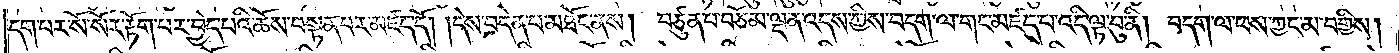དག་པར་སོ་སོར་རྟོག་པར་བྱེད་པའི་ཆོས་བསྟན་པར་མཛད་དོ། །དེས་བདེན་པ་མཐོང་ནས། བཙུན་པ་བཅོམ་ལྡན་འདས་ཀྱིས་བདག་ལ་གང་མཛད་པ་འདི་ལྟ་བུ་ནི། བདག་ལ་ལས་ཀྱང་མ་བགྱིས།
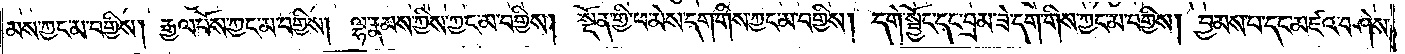མས་ཀྱང་མ་བགྱིས། རྒྱལ་པོས་ཀྱང་མ་བགྱིས། ལྷ་རྣམས་ཀྱིས་ཀྱང་མ་བགྱིས། སྔོན་གྱི་ཕ་མེས་དག་གིས་ཀྱང་མ་བགྱིས། དགེ་སྦྱོང་དང་བྲམ་ཟེ་དག་གིས་ཀྱང་མ་བགྱིས། བྱམས་པ་དང་མཛའ་བཤེས་
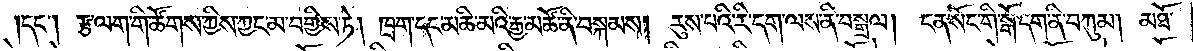དང༌། རྩ་ལག་གི་ཚོགས་ཀྱིས་ཀྱང་མ་བགྱིས་ཏེ། ཁྲག་དང་མཆི་མའི་རྒྱ་མཚོ་ནི་བསྐམས། རུས་པའི་རི་དག་ལས་ནི་བསྒྲལ། ངན་སོང་གི་སྒོ་དག་ནི་བཀུམ། མཐོ་
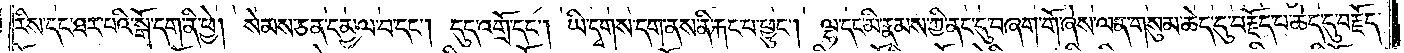རིས་དང་ཐར་པའི་སྒོ་དག་ནི་ཕྱེ། སེམས་ཅན་དམྱལ་བ་དང༌། དུད་འགྲོ་དང༌། ཡི་དྭགས་དག་ནས་ནི་རྐང་པ་ཕྱུང༌། ལྷ་དང་མི་རྣམས་ཀྱི་ནང་དུ་བཞག་གོ་ཞེས་ལན་གསུམ་ཆེད་དུ་བརྗོད་པ་ཆེད་དུ་བརྗོད་
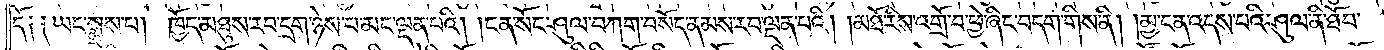དོ༑ ༑ཡང་སྨྲས་པ། ཁྱོད་མཐུས་རབ་དྲག་ཉེས་པ་མང་ལྡན་པའི། །ངན་སོང་ཤུལ་བཀག་བསོད་ནམས་རབ་ལྡན་པའི། །མཐོ་རིས་འགྲོ་བ་ཕྱེ་ཞིང་བདག་གིས་ནི། །མྱ་ངན་འདས་པའི་ཤུལ་ནི་ཐོབ་
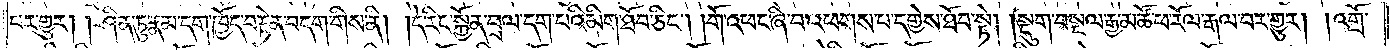པར་གྱུར། །ཤིན་ཏུ་རྣམ་དག་ཁྱོད་བརྟེན་བདག་གིས་ནི། །དེ་རིང་སྐྱོན་བྲལ་དག་པའི་མིག་ཐོབ་ཅིང༌། །གོ་འཕང་ཞི་བ་འཕགས་པ་དགྱེས་ཐོབ་སྟེ། །སྡུག་བསྔལ་རྒྱ་མཚོ་ཕ་རོལ་རྒལ་བར་གྱུར། །འགྲོ་
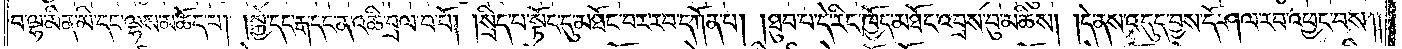བ་ལྷ་མིན་མི་དང་ལྷས་མཆོད་པ། །སྐྱེ་དང་རྒ་དང་ན་འཆི་བྲལ་བ་པོ། །སྲིད་པ་སྟོང་དུ་མཐོང་བར་རབ་དཀོན་པ། །ཐུབ་པ་དེ་རིང་ཁྱོད་མཐོང་འབྲས་བུ་མཆིས། །དེ་ནས་འདུད་བྱས་དོ་ཤལ་རབ་འཕྱང་བས༎
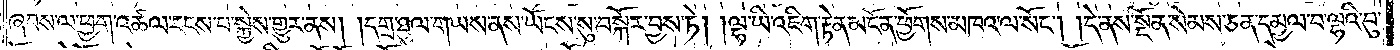ཞབས་ལ་ཕྱག་འཚལ་རངས་པ་སྐྱེས་གྱུར་ནས། །དགྲ་ཐུལ་གཡས་ནས་ཡོངས་སུ་བསྐོར་བྱས་ཏེ། །ལྷ་ཡི་འཇིག་རྟེན་མངོན་ཕྱོགས་མཁའ་ལ་སོང༌། །དེ་ནས་སྔོན་སེམས་ཅན་དམྱལ་བ་ལྷའི་བུ་
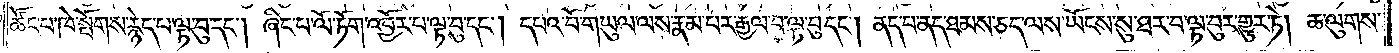ཚོང་པ་ཁེ་སྤོགས་རྙེད་པ་ལྟ་བུ་དང༌། ཞིང་པ་ལོ་ཏོག་འབྱོར་པ་ལྟ་བུ་དང༌། དཔའ་བོ་གཡུལ་ལས་རྣམ་པར་རྒྱལ་བ་ལྟ་བུ་དང༌། ནད་པ་ནད་ཐམས་ཅད་ལས་ཡོངས་སུ་ཐར་བ་ལྟ་བུར་གྱུར་ཏེ། ཆ་ལུགས་
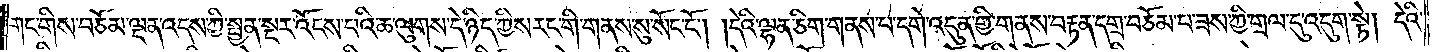གང་གིས་བཅོམ་ལྡན་འདས་ཀྱི་སྤྱན་སྔར་འོངས་པའི་ཆ་ལུགས་དེ་ཉིད་ཀྱིས་རང་གི་གནས་སུ་སོང་ངོ༌། །དེའི་ལྷན་ཅིག་གནས་པ་དགེ་འདུན་གྱི་གནས་བརྟན་དགྲ་བཅོམ་པ་ཟས་ཀྱི་གྲལ་དུ་འདུག་སྟེ། དེའི་
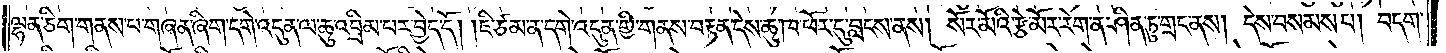ལྷན་ཅིག་གནས་པ་གཞན་ཞིག་དགེ་འདུན་ལ་ཆུ་འབྲིམ་པར་བྱེད་དོ། །ཇི་ཙམ་ན་དགེ་འདུན་གྱི་གནས་བརྟན་དེས་ཆུ་ཁ་ཕོར་དུ་བླངས་ནས། སོར་མོའི་རྩེ་མོར་རེག་ན་ཤིན་ཏུ་གྲང་ནས། དེས་བསམས་པ། བདག་
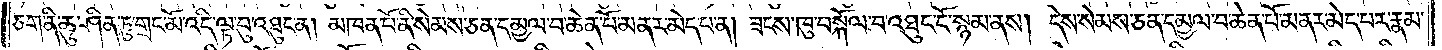ཅག་ནི་ཆུ་ཤིན་ཏུ་གྲང་མོ་འདི་ལྟ་བུ་འཐུང་ན། མཁན་པོ་ནི་སེམས་ཅན་དམྱལ་བ་ཆེན་པོ་མནར་མེད་པ་ན། ཟངས་ཁུ་བསྐོལ་བ་འཐུང་ངོ་སྙམ་ནས། དེས་སེམས་ཅན་དམྱལ་བ་ཆེན་པོ་མནར་མེད་པར་རྣམ་
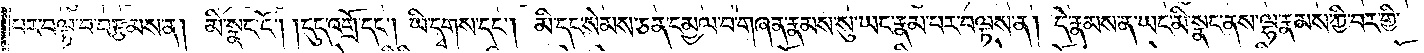པར་བལྟ་བ་བརྩམས་ན། མི་སྣང་ངོ༌། །དུད་འགྲོ་དང༌། ཡི་དྭགས་དང༌། མི་དང་སེམས་ཅན་དམྱལ་བ་གཞན་རྣམས་སུ་ཡང་རྣམ་པར་བལྟས་ན། དེ་རྣམས་ན་ཡང་མི་སྣང་ནས་ལྷ་རྣམས་ཀྱི་བར་གྱི་
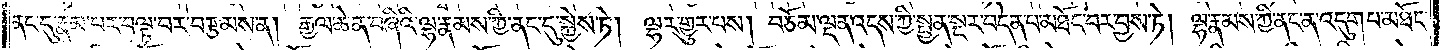ནང་དུ་རྣམ་པར་བལྟ་བར་བརྩམས་ན། རྒྱལ་ཆེན་བཞིའི་ལྷ་རྣམས་ཀྱི་ནང་དུ་སྐྱེས་ཏེ། ལྷར་གྱུར་པས། བཅོམ་ལྡན་འདས་ཀྱི་སྤྱན་སྔར་བདེན་པ་མཐོང་བར་བྱས་ཏེ། ལྷ་རྣམས་ཀྱི་ནང་ན་འདུག་པ་མཐོང་
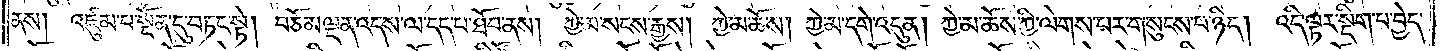ནས། འཛུམ་པ་སྔོན་དུ་བཏང་སྟེ། བཅོམ་ལྡན་འདས་ལ་དད་པ་ཐོབ་ནས། ཀྱེ་མ་སངས་རྒྱས། ཀྱེ་མ་ཆོས། ཀྱེ་མ་དགེ་འདུན། ཀྱེ་མ་ཆོས་ཀྱི་ལེགས་པར་གསུངས་པ་ཉིད། འདི་ལྟར་སྡིག་པ་བྱེད་
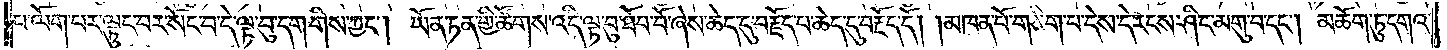པ་ལོག་པར་ལྟུང་བར་སོང་བ་དེ་ལྟ་བུ་དག་གིས་ཀྱང༌། ཡོན་ཏན་གྱི་ཚོགས་འདི་ལྟ་བུ་ཐོབ་བོ་ཞེས་ཆེད་དུ་བརྗོད་པ་ཆེད་དུ་བརྗོད་དོ། །མཁན་པོ་གཅིག་པ་དེས་དེ་རངས་ཤིང་མགུ་བ་དང༌། མཆོག་ཏུ་དགའ་
